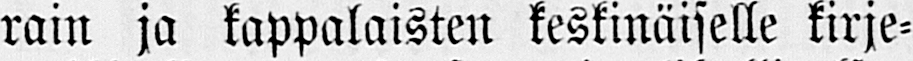rain ja kappalaisten keskinäiselle kirje-
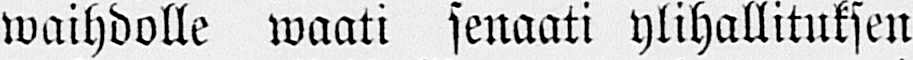waihdolle waati senaati ylihallituksen
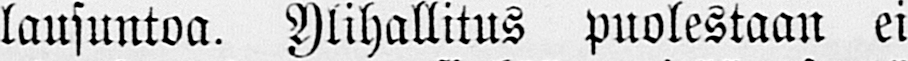lausuntoa. Ylihallitus puolestaan ei
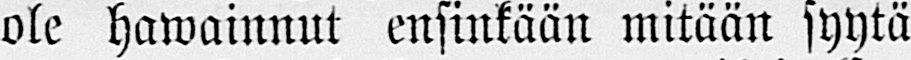ole hawainnut ensinkään mitään syytä
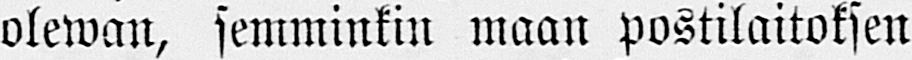olewan, semminkin maan postilaitoksen
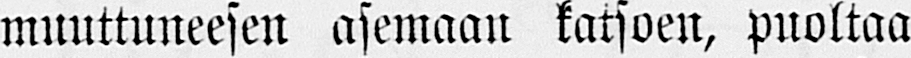muuttuneesen asemaan katsoen, puoltaa
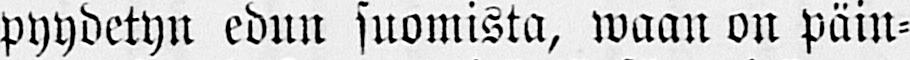pyydetyn edun suomista, waan on päin-
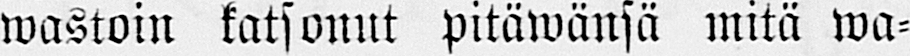wastoin katsonut pitäwänsä mitä wa-
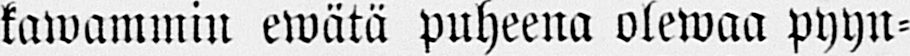kawammin ewätä puheena olewaa pyyn-
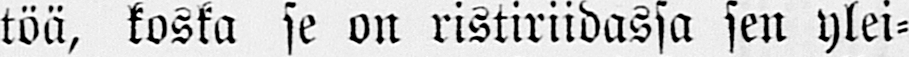töä, koska se on ristiriidassa sen ylei-
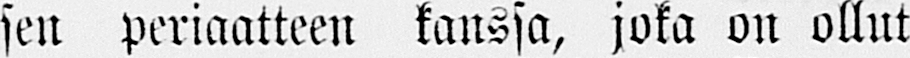sen periaatteen kanssa, joka on ollut
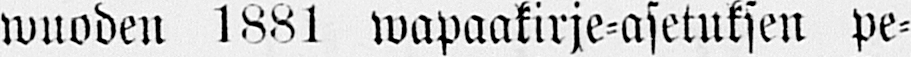wuoden 1881 wapaakirje-asetuksen pe-
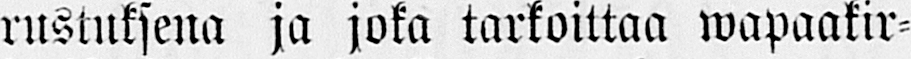rustuksena ja joka tarkoittaa wapaakir-
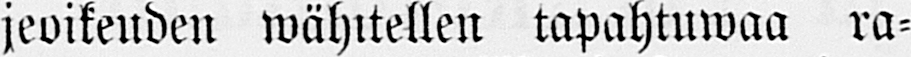jeoikeuden wähitellen tapahtuwaa ra-
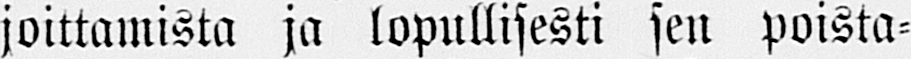joittamista ja lopullisesti sen poista-
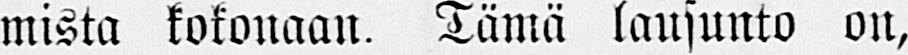mista kokonaan. Tämä lausunto on,
